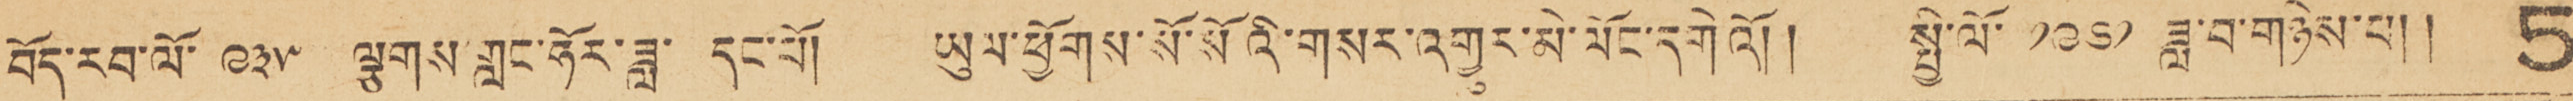བོད་རབ་ལོ་ ༩༣༥ ལྕགས་གླང་ཧོར་ཟླ་ དང་པོ། ཡུལ་ཕྱོགས་སོ་སོའི་གསར་འགྱུར་མི་ལོང་དགེའོ།། སྤྱི་ལོ་ ༡༩༦༡ ཟླ་བ་གཉིས་པ།། 5
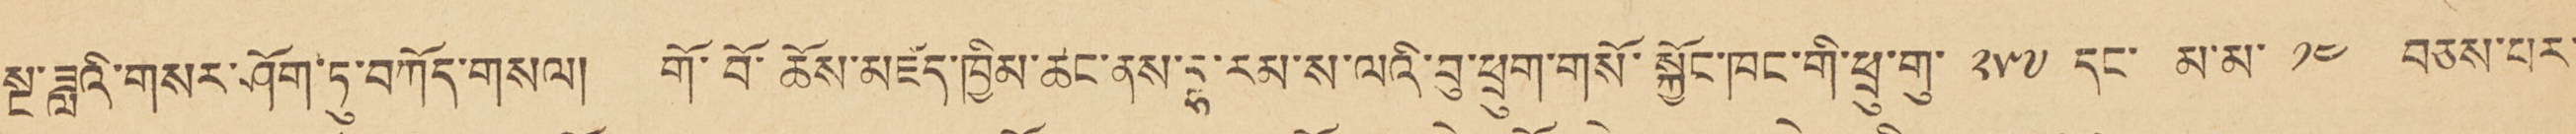སྔ་ཟླའི་གསར་ཤོག་ཏུ་བཀོད་གསལ། གོ་བོ་ཆོས་མཛད་ཁྱིམ་ཚང་ནས་དྷ་རམ་ས་ལའི་བུ་ཕྲུག་གསོ་སྐྱོང་ཁང་གི་ཕྲུ་གུ་ ༢༥༧ དང་ མ་མ་ ༡༤ བཅས་པར་
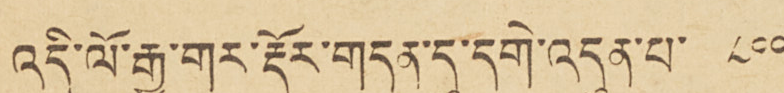འདི་ལོ་རྒྱ་གར་རྡོར་གདན་དུ་དགེ་འདུན་པ་ ༨༠༠
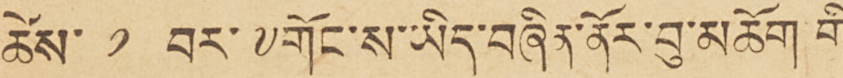ཚེས་ ༡ བར་༸གོང་ས་ཡིད་བཞིན་ནོར་བུ་མཆོག གི་
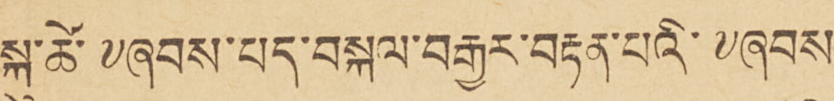སྐུ་ཚེ་༸ཞབས་པད་བསྐལ་བརྒྱར་བརྟན་པའི་༸ཞབས་
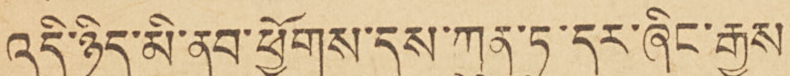འདི་ཉིད་མི་ནུབ་ཕྱོགས་དུས་ཀུན་ཏུ་དར་ཞིང་རྒྱས་
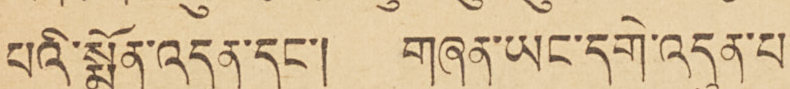པའི་སྨོན་འདུན་དང་། གཞན་ཡང་དགེ་འདུན་པ་
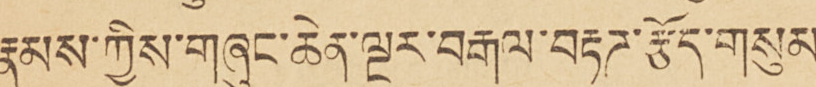རྣམས་ཀྱིས་གཞུང་ཆེན་ལྔར་བརྒལ་བརྟཊ་རྩོད་གསུམ་
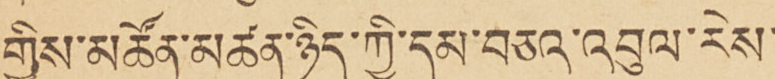གྱིས་མཚོན་མཚན་ཉིད་ཀྱི་དམ་བཅའ་འབུལ་རེས་
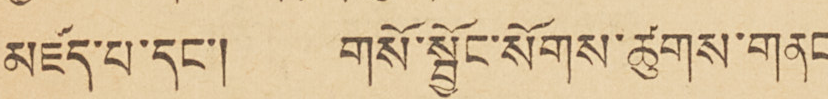མཛད་པ་དང་། གསོ་སྦྱོང་སོགས་ཚུགས་གནང་
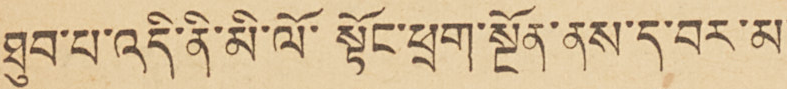ཐུབ་པའི་འདི་ནི་མི་ལོ་སྟོང་ཕྲག་སྔོན་ནས་ད་བར་མ་
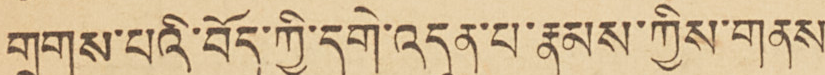གྲགས་པའི་བོད་ཀྱི་དགེ་འདུན་པ་རྣམས་ཀྱིས་གནས་
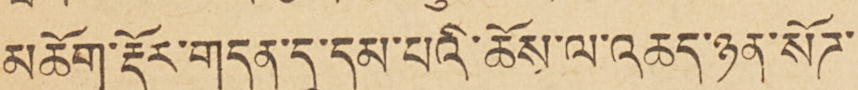མཆོག་རྡོར་གདན་དུ་དམ་པའི་ཆོས་ལ་འཆད་ཉན་སོཊ་
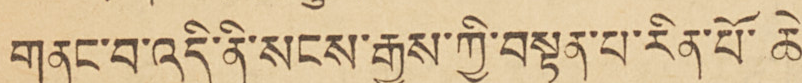གནང་བ་འདི་ནི་སངས་རྒྱས་ཀྱི་བསྟན་པ་རིན་པོ་ཆེ་
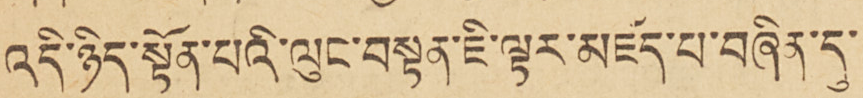འདི་ཉིད་སྟོན་པའི་ལུང་བསྟན་ཇི་ལྟར་མཛད་པ་བཞིན་དུ་
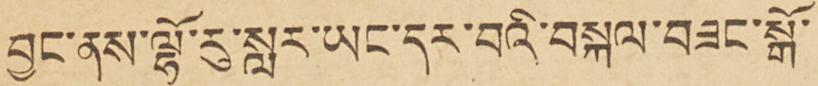བྱང་ནས་ལྷོ་རུ་སླར་ཡང་དར་བའི་བསྐལ་བཟང་སྒོ་
